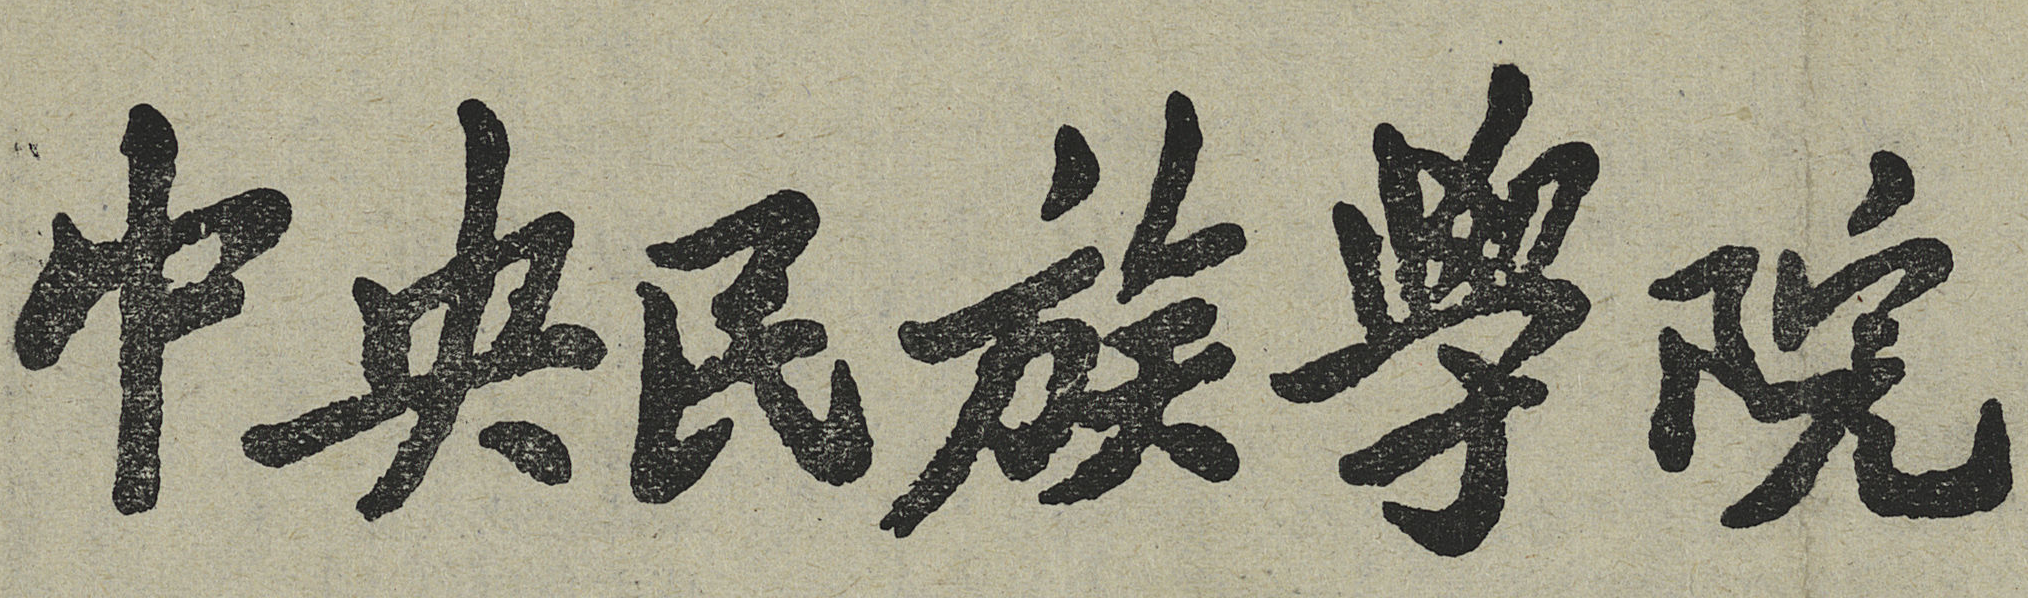中央民族學院
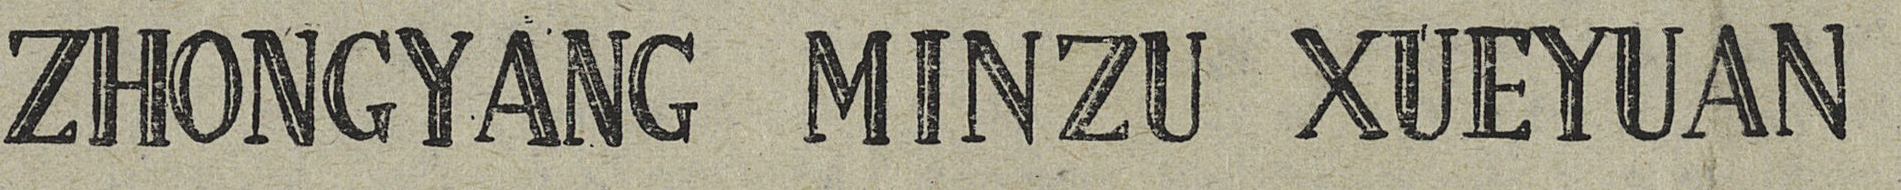ZHONGYANG MINZU XUEYUAN
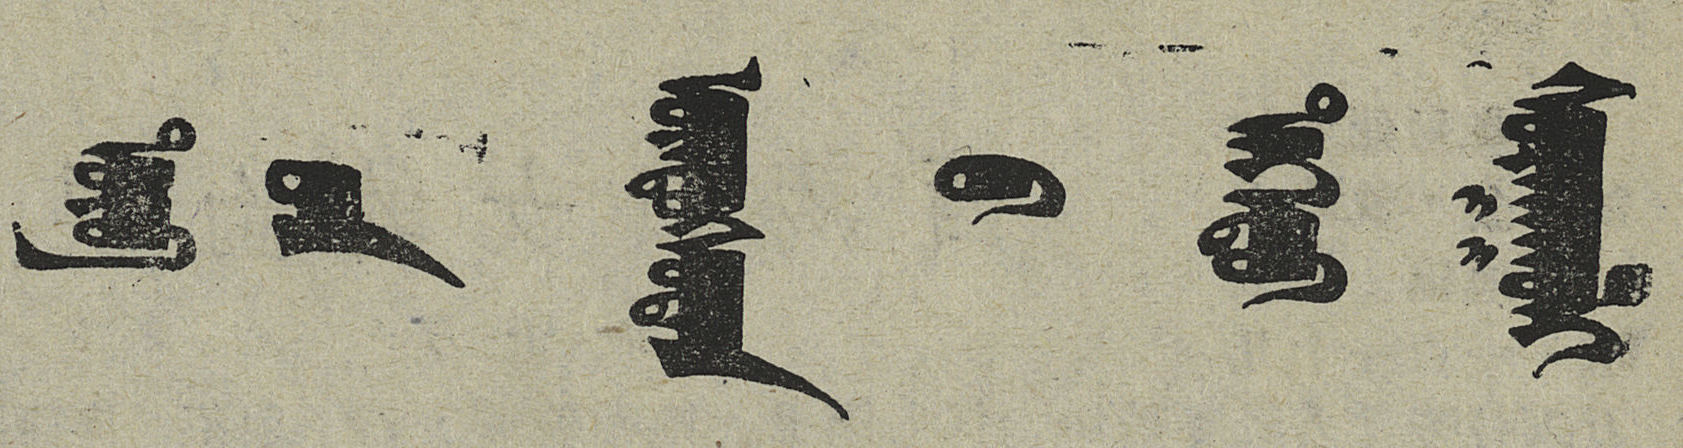ᠲᠥᠪ ᠦᠨ ᠦᠨᠳᠦᠰᠦᠲᠡᠨ ᠦ ᠳᠡᠭᠡᠳᠦ ᠰᠤᠷᠭᠠᠭᠤᠯᠢ
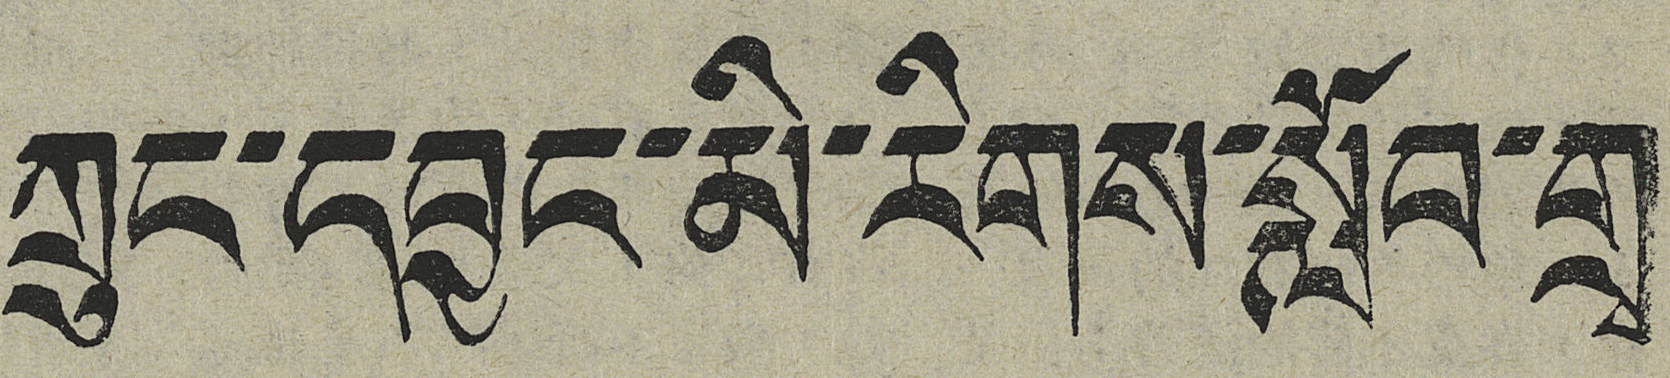ཀྲུང་དབྱང་མི་རིགས་སློབ་གྲྭ
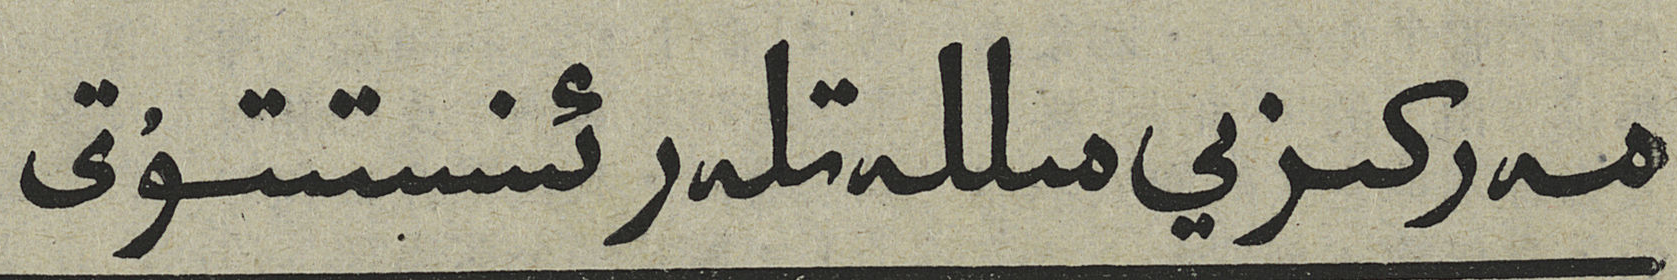مەركىزىي مىللەتلەر ئىنستىتۇتى
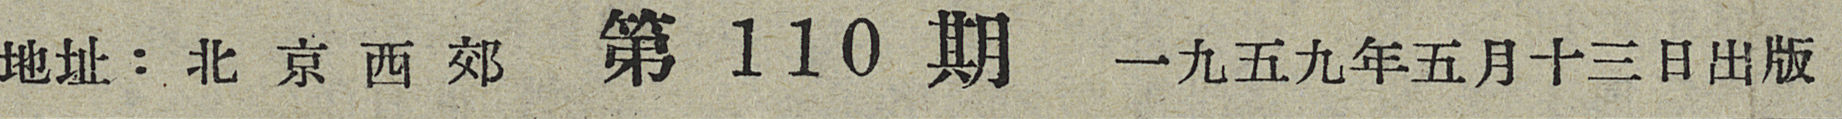地址：北 京 西 郊 第 110 期 一九五九年五月十三日出版
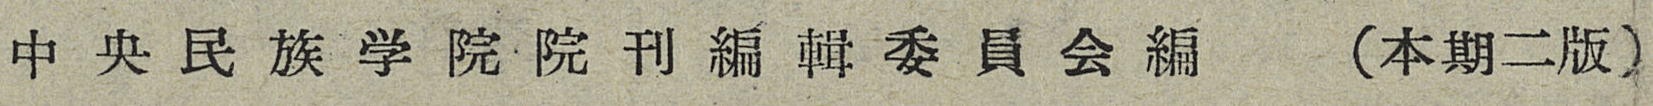中央民族学院院刊編輯委員會編 （本期二版）
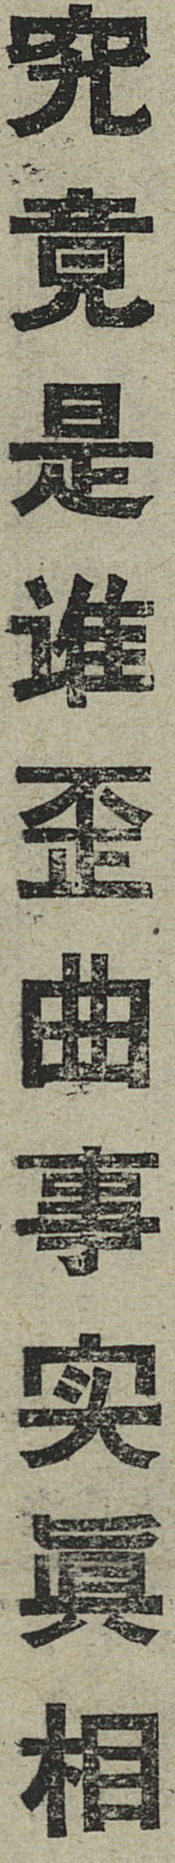究竟是谁歪曲事实眞相
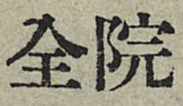全院
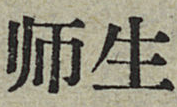师生
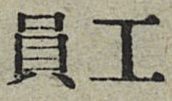員工
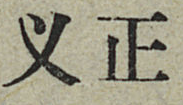义正
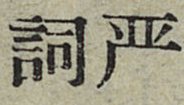詞严
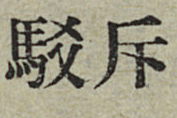駁斥
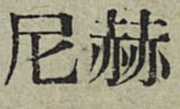尼赫
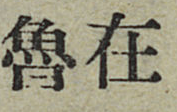魯在
